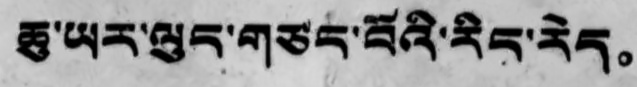ཆུ་ཡར་ལུང་གཙང་པོའི་རིང་རེད。
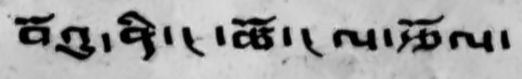བོའོ་ནི་ང་ཚོ་ངལ་རྩོལ་
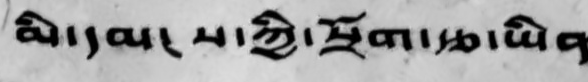མི་དམངས་ཀྱི་སྲོག་རྩ་ཡིན
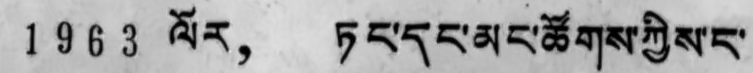1963 ལོར， ཏང་དང་མང་ཚོགས་ཀྱིས་ང་
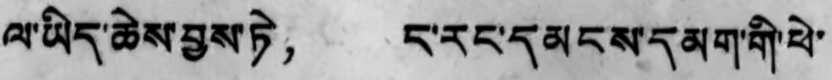ལ་ཡིད་ཆེས་བྱས་ཏེ， ང་རང་དམངས་དམག་གི་ཕེ་
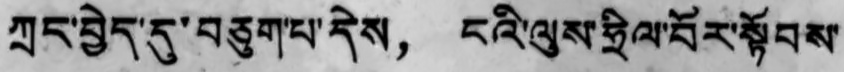ཀྲང་བྱེད་དུ་བཅུག་པ་དེས， ངའི་ལུས་ཧྲིལ་བོར་སྟོབས་
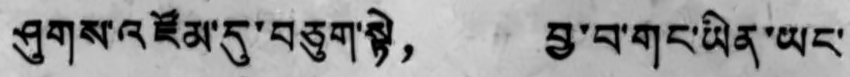ཤུགས་འཛོམ་དུ་བཅུག་སྟེ， བྱ་བ་གང་ཡིན་ཡང་
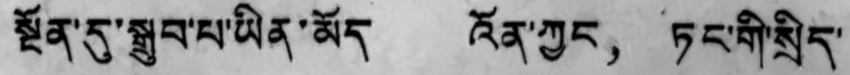སྔོན་རུ་སྒྲུབ་པ་ཡིན་མོད འོན་ཀྱང， ཏང་གི་སྲིད་
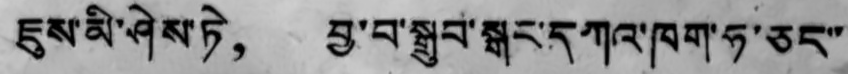ཇུས་མི་ཤེས་ཏེ， བྱ་བ་སྒྲུབ་སྒང་དཀའ་ཁག་ཧ་ཅང་་
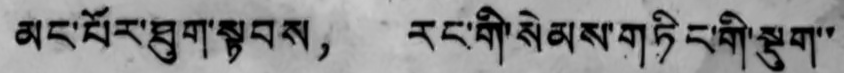མང་པོར་ཐུག་སྟབས， རང་གི་སེམས་གཏིང་གི་སྡུག་་
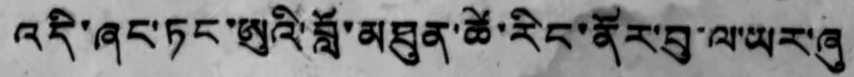འདི་ཞུང་ཏང་ཨུའི་བློ་མཐུན་ཚེ་རིང་ནོར་བུ་ལ་ཡར་ཞུ
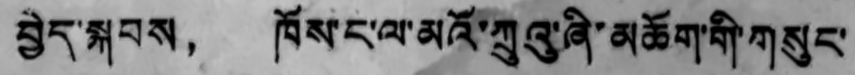བྱེད་སྐབས， ཁོས་ང་ལ་མའོ་ཀྲུའུ་ཞི་མཆོག་གི་གསུང་
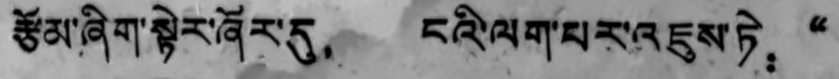རྩོམ་ཞིག་སྟེར་ཞོར་དུ， ངའི་ལག་པར་འཇུས་ཏེ：“
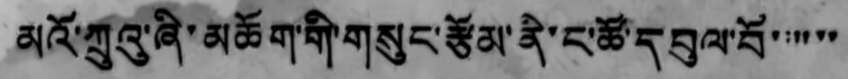མའོ་ཀྲུའུ་ཞི་མཆོག་གི་གསུང་རྩོམ་ནི་ང་ཚོ་དབུལ་བོ་་་་་་
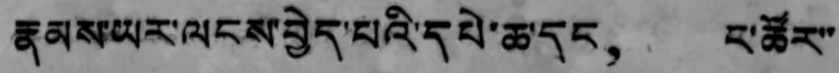རྣམས་ཡར་ལངས་བྱེད་པའི་དཔེ་ཆ་དང， ང་ཚོར་་
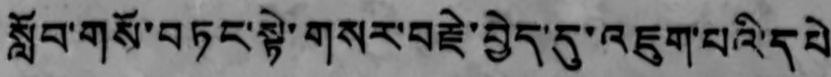སློབ་གསོ་བཏང་སྟེ་གསར་བརྗེ་བྱེད་དུ་འཇུག་པའི་དཔེ
